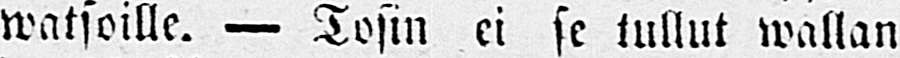watsoille. — Tosin ei se tullut wallan
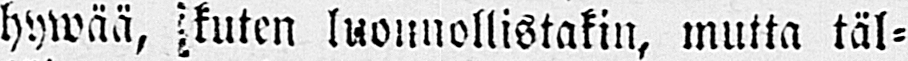hywää, kuten luonnollistakin, mutta täl-
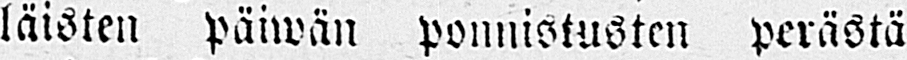laisten päiwän ponnistusten perästä
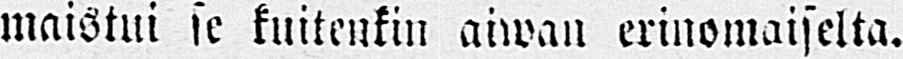maistui se kuitenkin aiwan erinomaiselta.
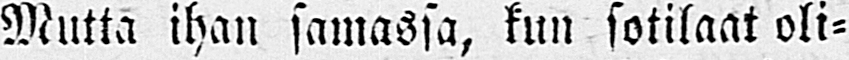Mutta ihan samassa, kun sotilaat oli-
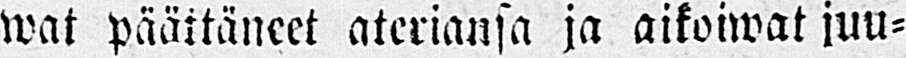wat päättäneet ateriansa ja aikoiwat juu-
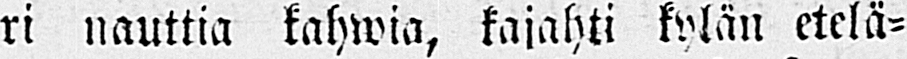ri nauttia kahwia, kajahti kylän etelä-
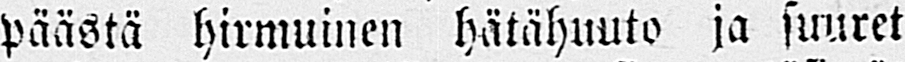päästä hirmuinen hätähuuto ja suuret
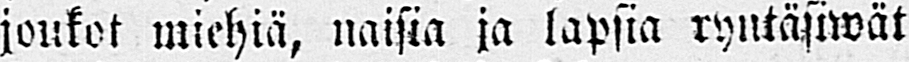joukot miehiä, naisia ja lapsia ryntäsiwät
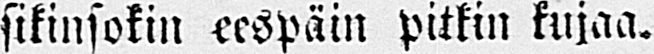sikinsokin eespäin pitkin kujaa.
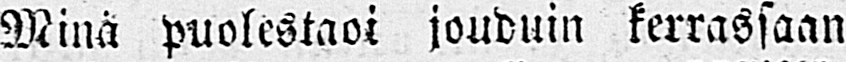Minä puolestaoi jouduin kerrassaan
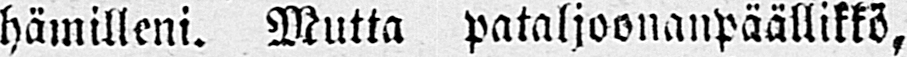hämilleni. Mutta pataljoonanpäällikkö,
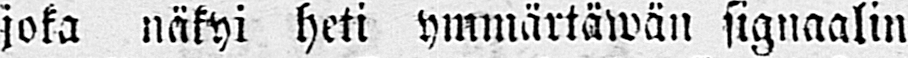joka näkyi heti ymmärtäwän signaalin
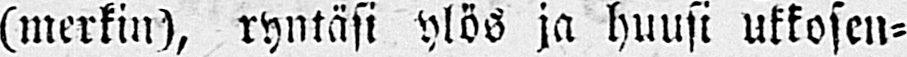(merkin), ryntäsi ylös ja huusi ukkosen-
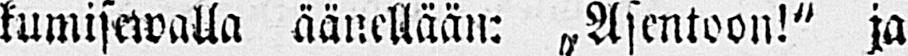kumisewalla äänellään: „Asentoon" ja
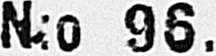N:o 96.
